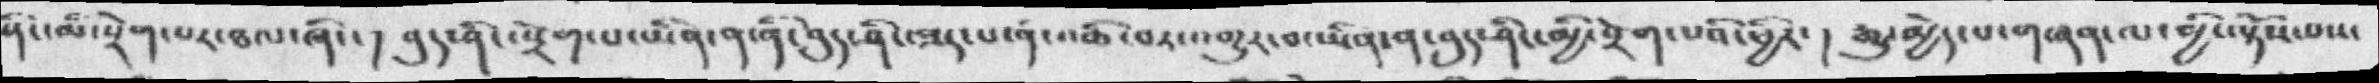ནི་མི་སྲེག་པར་ཐལ་ཞིང་། བུད་ཤིང་སྲེག་པ་ཡིན་ན་ནི་བུད་ཤིང་ཟད་པ་ནི་འཆི་བར་འགྱུར་བ་ཡིན་ན་བུད་ཤིང་མྱི་སྲེག་པའི་ཕྱིར་། རྒྱུ་མྱེད་པ་གཞན་ལ་མྱི་ལྟོས་པས་
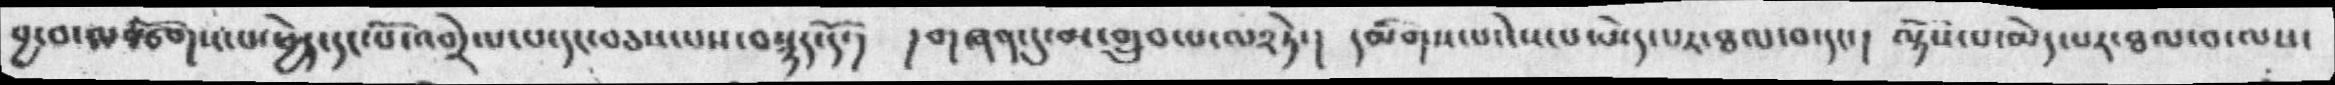བྱ་བ་ལསྩོགས་པ་ཕྱེད་དང་པོ་འགྲེལ་པ་དང་བཅས་པས་བསྙད་དོ་།  །གཞན་དུ་མ་གྲུབ་པ་ལ༢ཏེ་།  དམིགས་པ་ངེས་པར་ཐལ་བ་དང་། ལྟོས་པ་མེད་པར་ཐལ་བ་ལས་
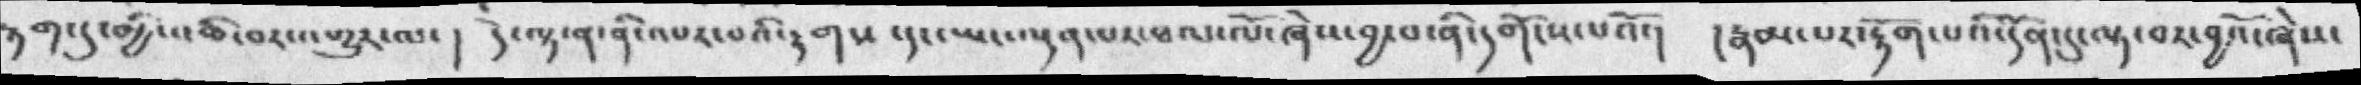རྟག་དུ་མྱི་འཆི་བར་འགྱུར་ལ་།  དེ་ལྟ་ན་ནི་འབར་བའི་རྟགས་དང་ཡང་ལྡན་པར་ཐལ་ལོ་ཞེས་བྱ་བ་ནི་དགོངས་པའོ་། །རྣམ་པར་རྟོག་པའི་དོན་དུ་ལྟ་བར་བྱའོ་ཞེས་
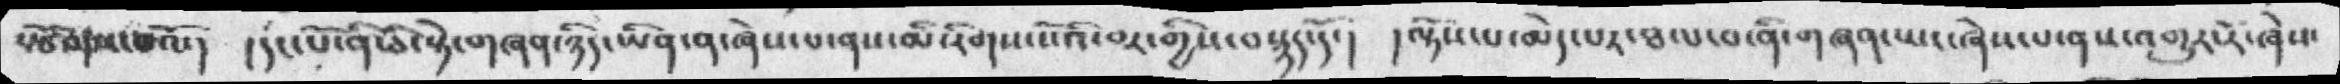སྩོགས་པའོ་།  །དང་པོ་ནི་ཅི་སྟེ་གཞན་ཉིད་ཡིན་ན་ཞེས་པ་ནས་མི་རིགས་སོའི་བར་གྱིས་བསྙད་དོ་།  །ལྟོས་པ་མེད་པར་ཐལ་བ་ནི་གཞན་ཡང་ཞེས་པ་ནས་འགྱུར་རོ་ཞེས་
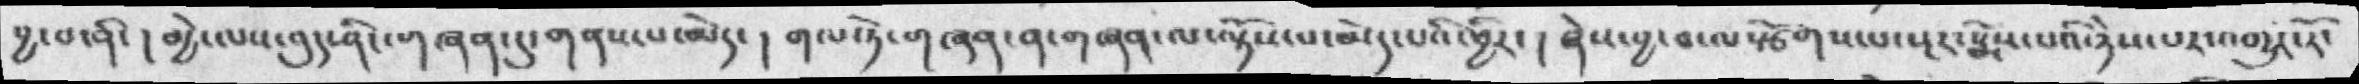བྱ་བ་ནི་། མྱེ་ལས་བུད་ཤཱིང་གཞན་དུ་གནས་པ་མེད་།  གལ་ཏེ་གཞན་ན་གཞན་ལ་ལྟོས་པ་མེད་པའི་ཕྱིར་། ཞེས་བྱ་བ་ལསྩོགས་པ་སྔར་སྨོས་པའི་ཉེས་པར་འགྱུར་རོ་
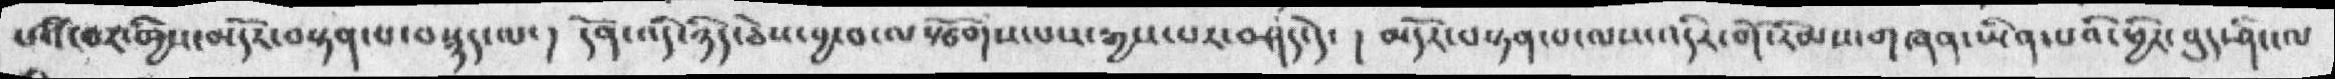པའི་བར་གྱིས་མདོར་བསྟན་པ་བསྙད་ལ་། དོན་འདི་ཉིད་ཅེས་བྱ་བ་ལསྩོགས་པས་རྒྱས་པར་བཤད་དེ་།  མདོར་བསྟན་པ་ལས་འདིར་གོ་རིམས་གཞན་ཡིན་པའི་ཕྱིར་བུད་ཤིང་ལ་
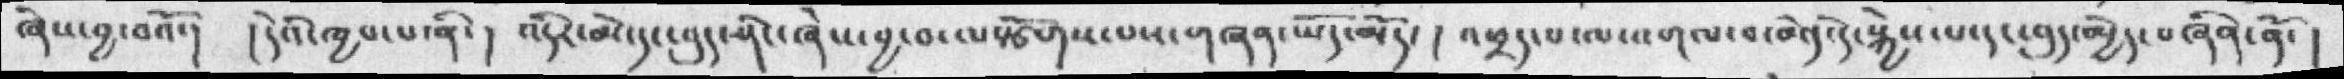ཞེས་བྱ་བའོ་།  །དེའི་ཁྱབ་པ་ནི་། འདིར་མེ་དང་བུད་ཤིང་ཞེས་བྱ་བ་ལསྩོགས་པས་གཞན་ཡོད་མོད་། འཕྲད་པ་ལ་འགལ་བ་མེད་དེ་སྐྱེས་པ་དང་བུད་མྱེད་བཞིན་ནོ་།
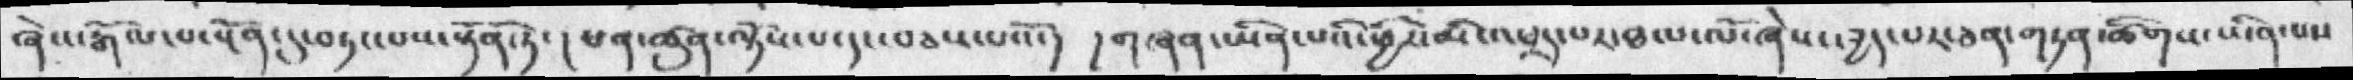ཞེས་རྒོལ་པ་སྔོན་དུ་བཏང་པས་སྟོན་ཏོ་། ཕན་ཚུན་ལྟོས་པ་དང་བཅས་པའོ་།  །གཞན་ཡིན་པའི་ཕྱིར་མི་འཕྲད་པར་ཐལ་ལོ་ཞེས་ཁྱད་པར་ཅན་གཏན་ཚིགས་ཡིན་པས་
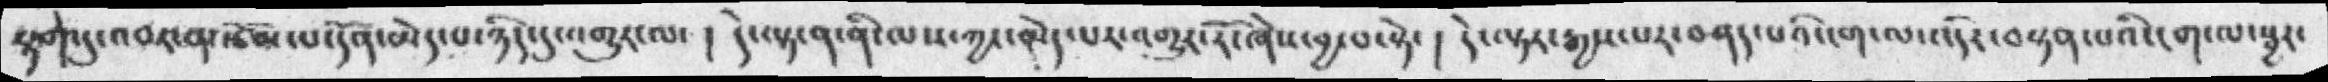རྟག་དུ་འབར་ན་རྩོམ་པ་དོན་མེད་པ་ཉིད་དུ་འགྱུར་ལ་།  དེ་ལྟ་ན་ནི་ལས་ཀྱང་མེད་པར་འགྱུར་རོ་ཞེས་བྱ་བ་སྟེ་། དེ་ལྟར་རྒྱས་པར་བཤད་པའི་ངག་ལ་འདིར་བསྟན་པའི་ངག་ལ་སྦྱར་
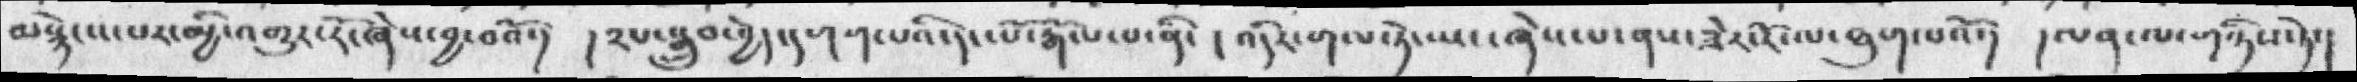མསྙེངས་པར་མྱི་འགྱུར་རོ་ཞེས་བྱ་བའོ་།  །༢པ་སྒྲུབ་བྱེད་དགག་པའི་དང་པོ་རྒོལ་པ་ནི་། འདིར་གལ་ཏེ་ཡང་ཞེས་པ་ནས་ཟེར་རོ་ལ་ཐུག་པའོ་།  །ལན་ལ་གཉིས་ཏེ་།
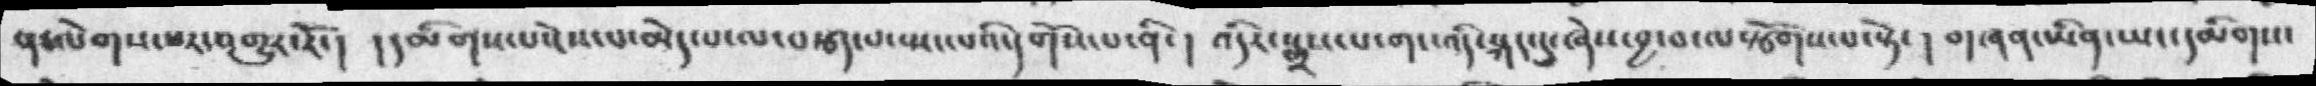ན་ལེགས་པར་འགུར་རོ་།  །དམིགས་པ་ངེས་པ་མེད་པ་ལ་བརྩད་པ་སྤང་པའི་དགོས་པ་ནི་།  འདིར་སྨྲས་པ་གང་འདི་སྐད་དུ་ཞེས་བྱ་བ་ལསྩོགས་པ་སྟེ་། གཞན་ཡིན་ཡང་དམིགས་
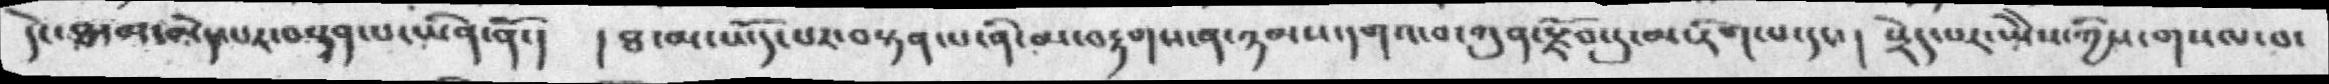དེ་ཐ་མ་མེད་པར་བསྟན་པ་ཡིན་ནོ་།  །ཐ་མ་ཡོད་པར་བསྟན་པ་ནི་མ་བརྟགས་ན་ཉམས་དགའ་བ་ཀུན་རྫོབ་དུ་མ་རིག་པ་དང་།  སྲེད་པར་ཡཻས་ཀྱིས་གསལ་བ་
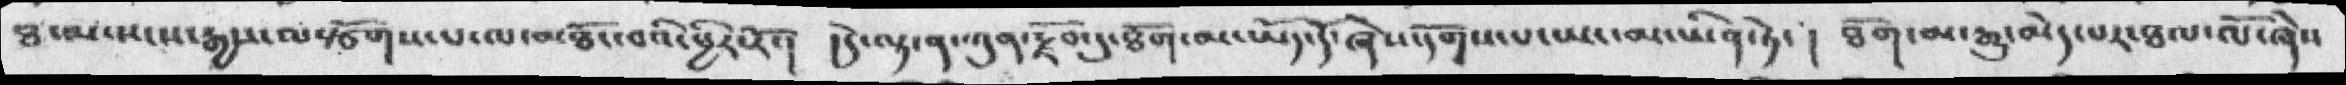ཐ་མ་སངས་རྒྱས་ལསྩོགས་པ་ལ་མཐོ་བའི་ཕྱིར་རོ་།     །དེ་ལྟ་ན་ཀུན་རྗོབ་དུ་ཐོག་མ་ཡོད་དོ་ཞེས་དགོས་པ་ཡང་མ་ཡིན་ཏེ་  །  ཐོག་མ་རྒྱུ་མེད་པར་ཐལ་ལོ་ཞེས་
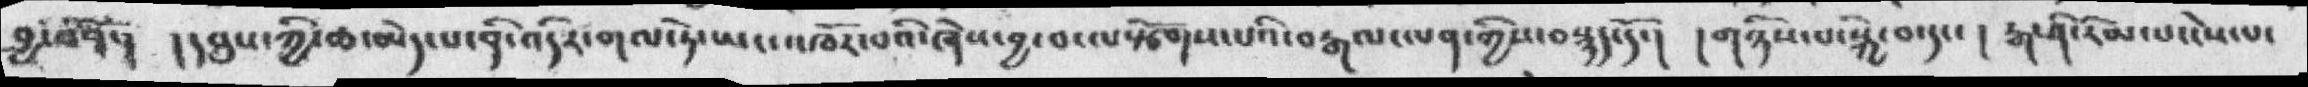བྱ་བའོ་།   ། དབུས་ཀྱི་ཆ་མེད་པ་ནི་འདིར་གལ་ཏེ་ཡང་འཁོར་བའི་ཞེས་བྱ་བ་ལསྩོགས་པའི་བརྒལ་ལན་གྱིས་བསྙད་དོ་།    །གཉིས་པ་སྐྱེ་བ་དང་  །  རྒ་ཤི་རིམ་པ་ངེས་པ་
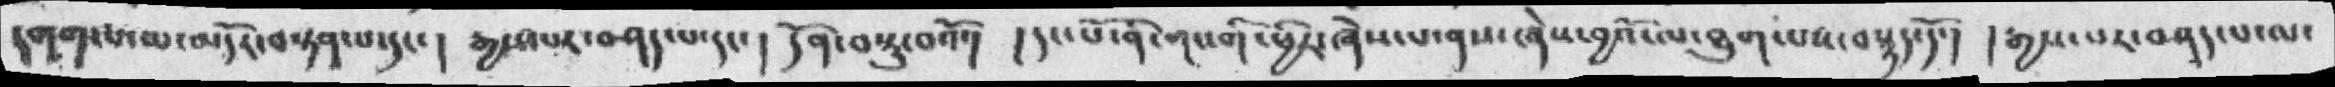དགག་པ་ལ་མདོར་བསྟན་པ་དང་  ། རྒྱས་པར་བཤད་པ་དང་  །  དོན་བསྡུ་བའོ་།   །དང་པོ་ནི་གང་གི་ཕྱིར་ཞེས་པ་ནས་ཞེས་བྱའོ་ལ་ཐུག་པས་བསྙད་དོ་།   །རྒྱས་པར་བཤད་པ་ལ་
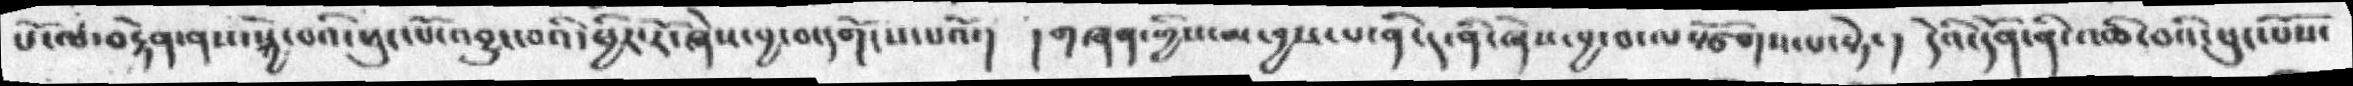པོ་ལ་རྟེན་ནས་སྐྱེ་བའི་ཕུང་པོ་འབྱུང་བའི་ཕྱིར་རོ་ཞེས་བྱ་བ་དགོངས་པའོ་།  །གཞན་གྱིས་མ་བྱས་པ་ནི་ད་ནི་ཞེས་བྱ་བ་ལསྩོགས་པ་སྟེ་། དེའི་དོན་ནི་འཆི་བའི་ཕུང་པོས་
